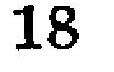18
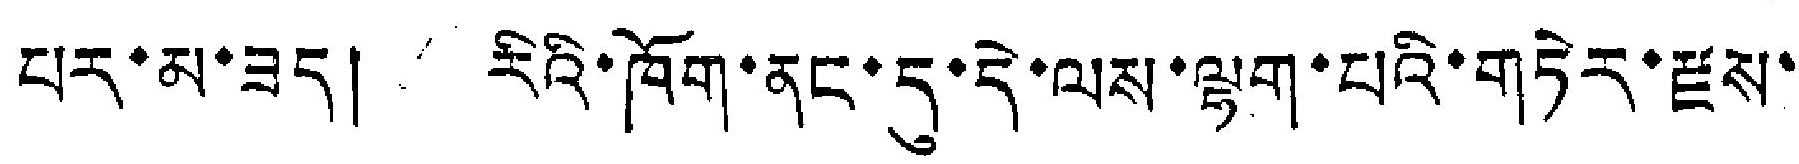པར་མ་ཟད། རིའི་ཁོག་ནང་དུ་དེ་ལས་ལྷག་པའི་གཏེར་རྫས་
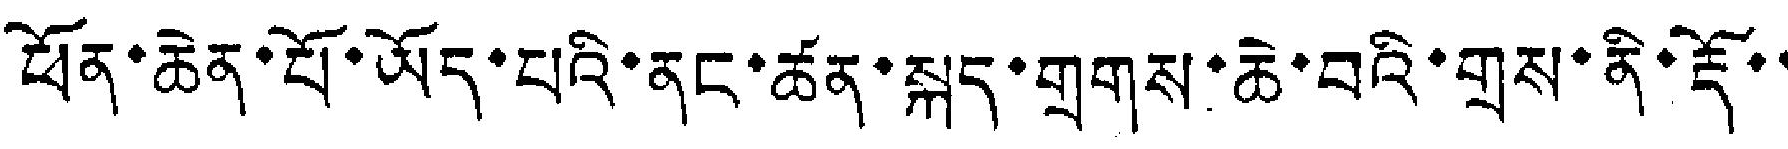ཕོན་ཆེན་པོ་ཡོད་པའི་ནང་ཚན་སྐད་གྲགས་ཆེ་བའི་གྲས་ནི་རྡོ་་
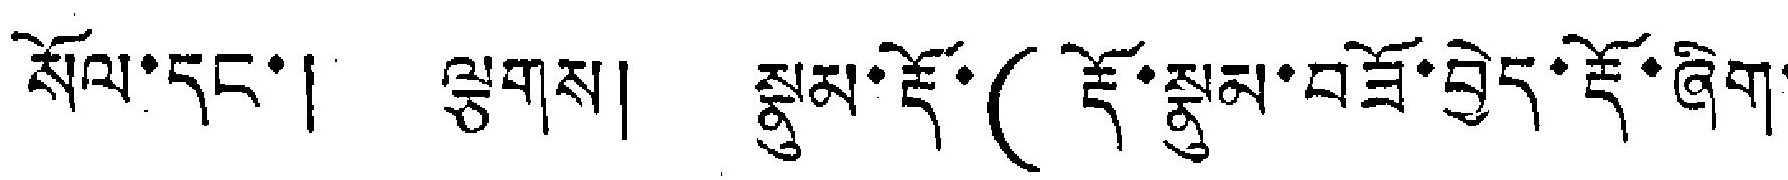སོལ་དང་། ལྕགས། སྣམ་རྡོ་(རྡོ་སྣུམ་བཟོ་བྱེད་རྡོ་ཞིག་
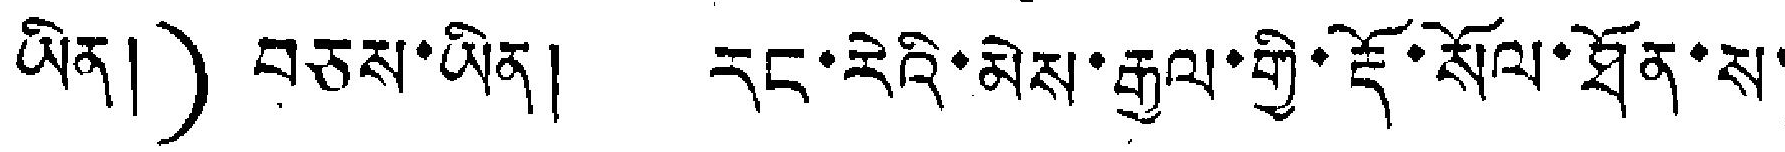ཡིན།) བཅས་ཡིན། རང་རེའི་མེས་རྒྱལ་གྱི་རྡོ་སོལ་ཐོན་ས་
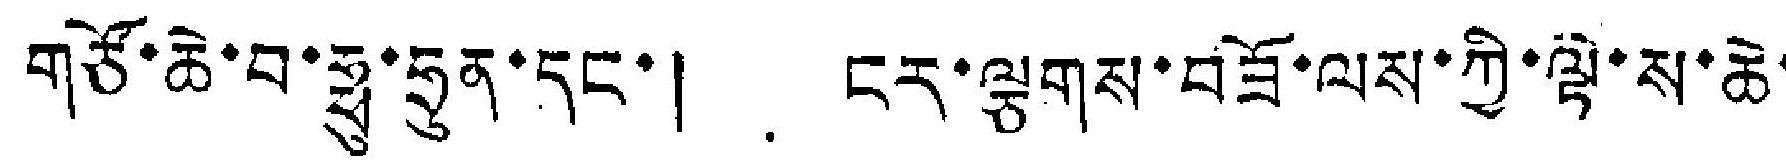གཙོ་ཆེ་བ་ཧྥུ་ཧྲུན་དང་། ངར་ལྕགས་བཟོ་ལས་ཀྱི་ལྟེ་ས་ཆེ་
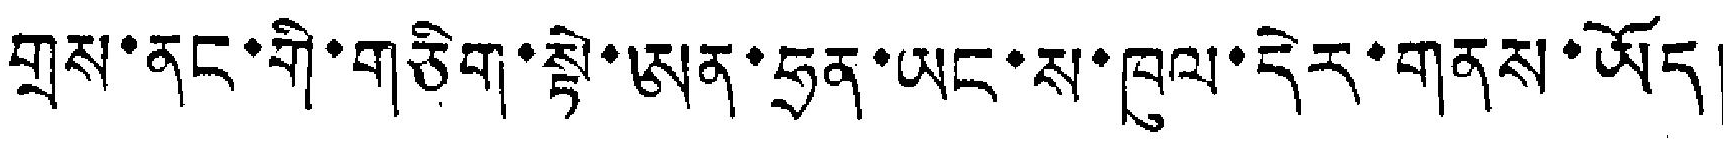གྲས་ནང་གི་གཅིག་སྟེ་ཨན་ཧྲན་ཡང་ས་ཁུལ་དེར་གནས་ཡོད།
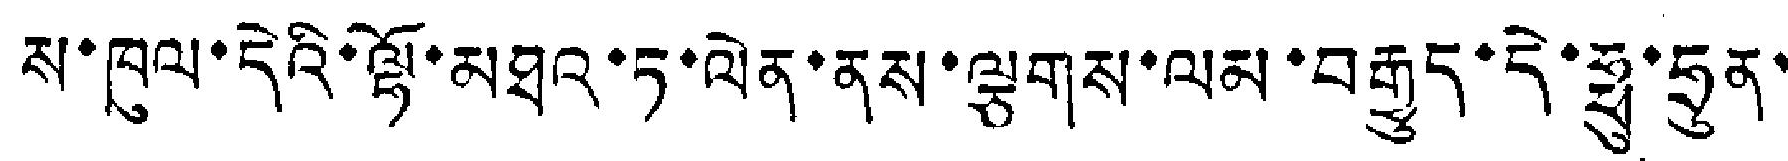ས་ཁུལ་དེའི་ལྷོ་མཐའ་ཏུ་ལེན་ནས་ལྕགས་ལམ་བརྒྱུད་དེ་ཧྥུ་ཧྲུན་
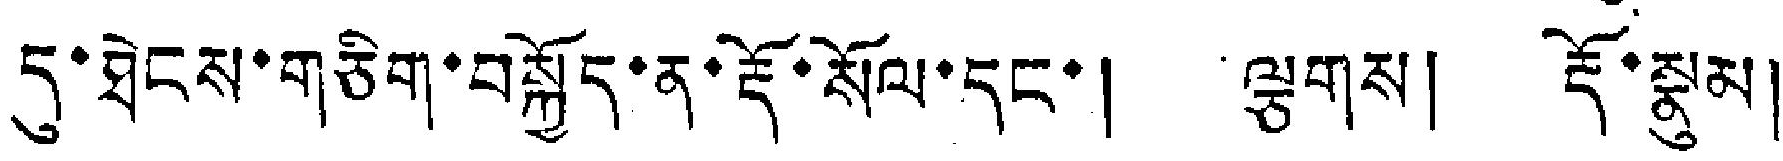དུ་ཐེངས་གཅིག་བསྐྱོད་ན་རྡོ་སོལ་དང་། ལྕགས། རྡོ་སྣུམ།
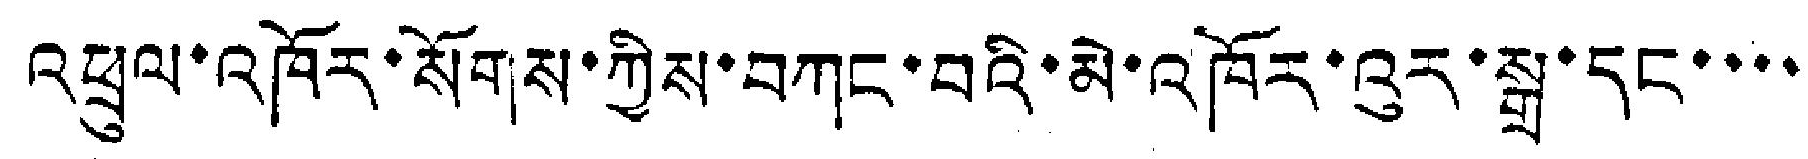འཕྲུལ་འཁོར་སོགས་ཀྱིས་བཀང་བའི་མེ་འཁོར་འུར་སྒྲ་དང་་་་
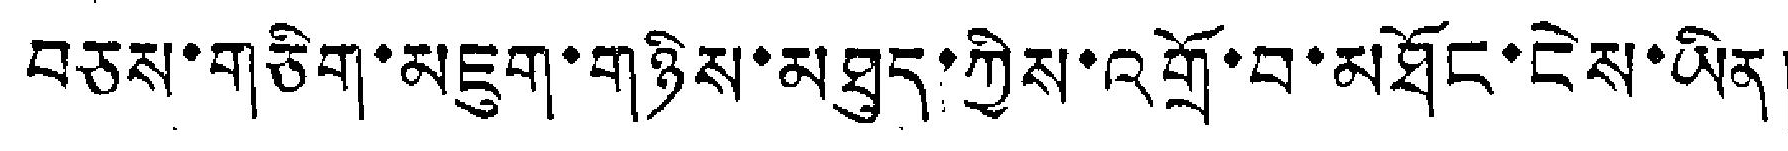བཅས་གཅིག་མཇུག་གཉིས་མཐུད་ཀྱིས་འགྲོ་བ་མཐོང་ངེས་ཡིན།
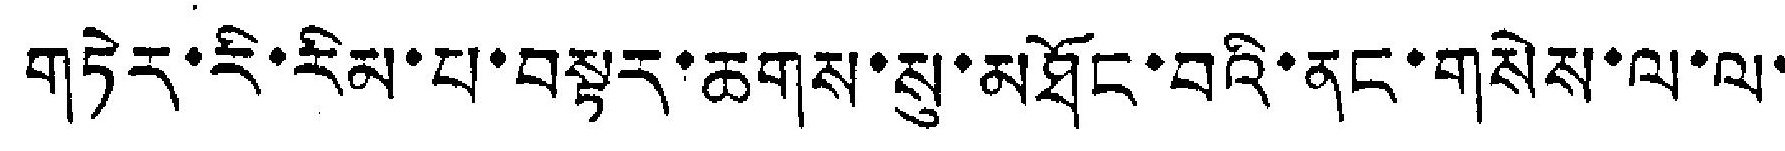གཏེར་རི་རིམ་པ་བསྟར་ཆགས་སུ་མཐོང་བའི་ནང་གསེས་ལ་ལ་
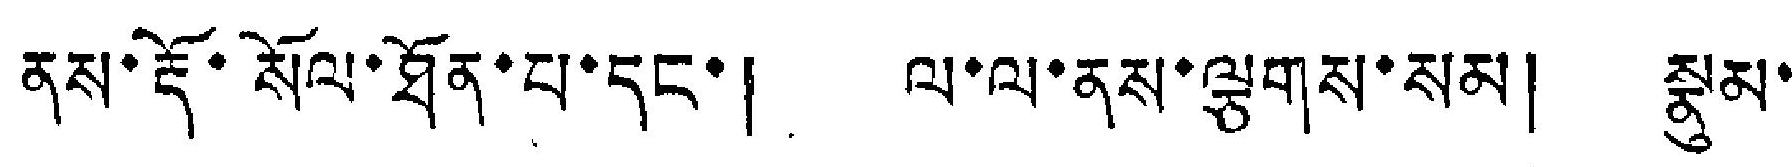ནས་རྡོ་སོལ་ཐོན་པ་དང་། ལ་ལ་ནས་ལྕགས་སམ། སྣུམ་
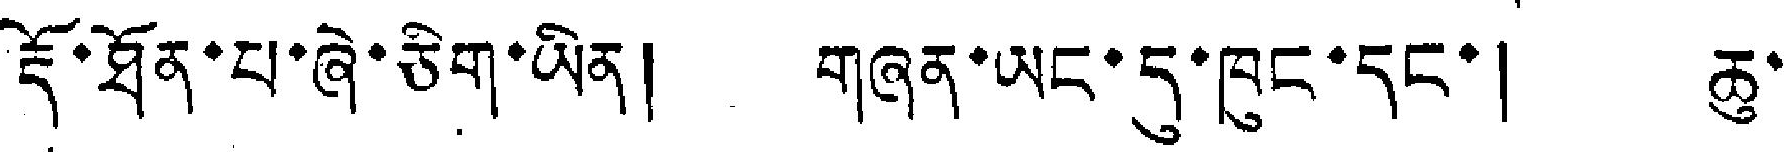རྡོ་ཐོན་པ་ཞེ་ཅིག་ཡིན། གཞན་ཡང་དུ་ཁུང་དང་། ཆུ་
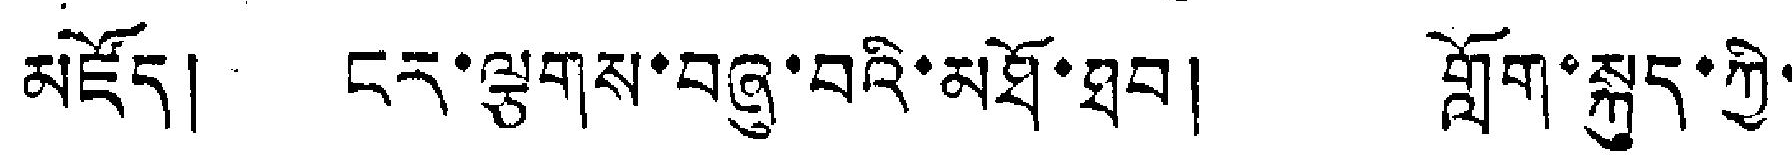མཛོད། ངར་ལྕགས་བཞུ་བའི་མཐོ་ཐབ། གློག་སྐུད་ཀྱི་
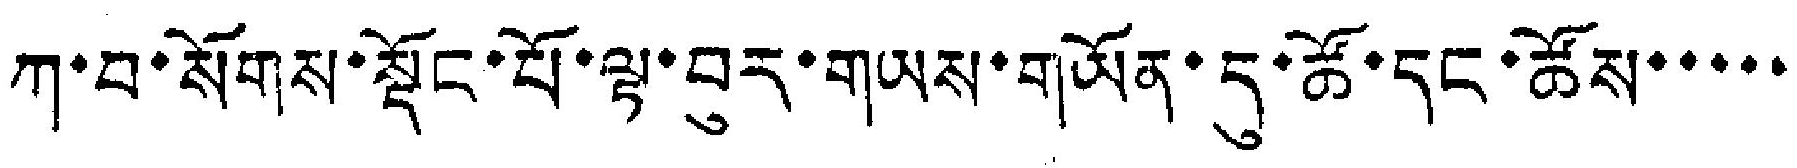ཀ་བ་སོགས་སྡོང་པོ་ལྟ་བུར་གཡས་གཡོན་དུ་ཚོ་དང་ཚོས་་་་་
